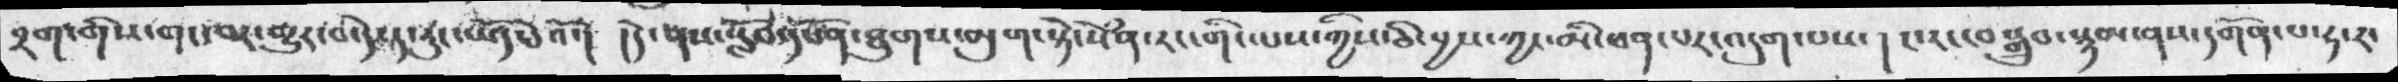བྲག་གིས་གང་བར་མྱུར་བ་དེ་ཏ་ཏུང་ཡོད་དེའོ་།  ། དེ་ནས་སློབ་དཔོན་ཐུགས་མུག་སྟེ་སེཾན་རང་གི་ལས་ཀྱིས་ཅི་བྱས་ཀྱང་མི་ཕན་པར་འདུག་པས་ ། ང་རང་བསྒྲུབ་སྙམ་ནས་དགོན་པ་ཧ་ར་
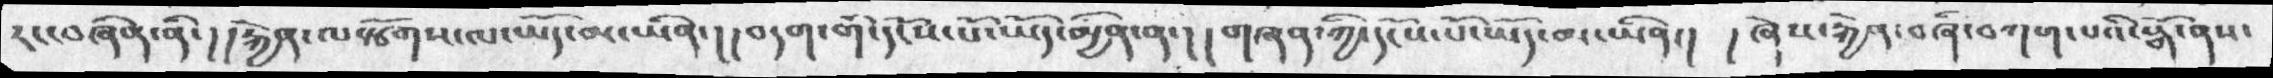རང་བཞིན་ནི་ །། རྐྱེན་ལ་རྩོགས་ལ་ཡོད་མ་ཡིན་།། བདག་གི་དངོས་པོ་ཡོད་མྱིན་ན་།། གཞན་ཀྱི་དངོས་པོ་ཡོད་མ་ཡིན་།  ། ཞེས་རྐྱེན་བཞི་བཀག་པའི་སྒོ་ནས་
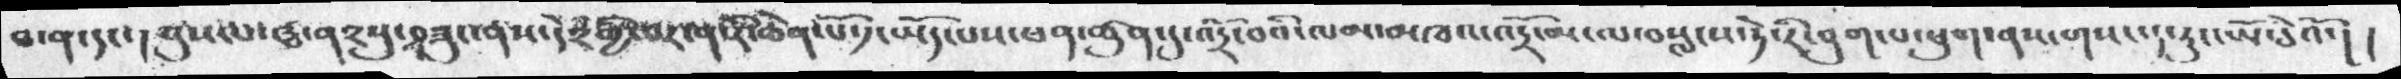ཐ་ན་དང་།  ནུས་ལ་ཝ༢སུ་བཟུང་ནས་དེ༢གྱི་བར་ན་རེ་ཆེན་པོ་༡་ཡོད་པས་ཕན་ཚུན་དུ་འདྲོ་བའི་ལམ་མཁའ་འདྲེ་མ་ལ་བསླངས་ཏེ་རི་བུག་པ་ཕུག་ནས་གསང་དུ་རུང་ཡོ་ཅེའོ་།  །
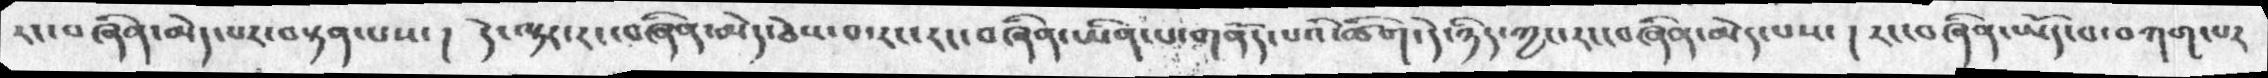རང་བཞིན་མེད་པར་བསྟན་པས་།  དེ་ལྟར་རང་བཞིན་མེད་ཅེས་བ་རང་རང་བཞིན་ཡིན་པ་གནོད་པའི་ཚིག་དེ་ཉིད་ཀྱང་རང་བཞིན་མེད་པས་།  རང་བཞིན་ཡོད་པ་བཀག་པར
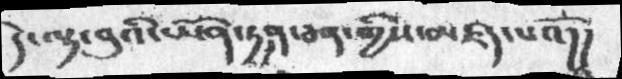དེ་ལྟ་བུའི་ཡོན་ཏན་ཅན་གྱིས་མཛད་པའོ།།
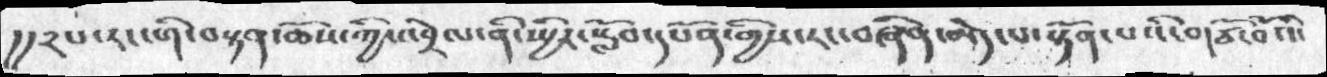།།༢པ་རང་གི་བསྟན་ཆོས་ཀྱི་འབྲེལ་ནི་སྤྱིར་སློབ་དཔོན་གྱིས་རང་བཞིན་མེད་པ་སྟོན་པའི་གཙོ་བོའི་
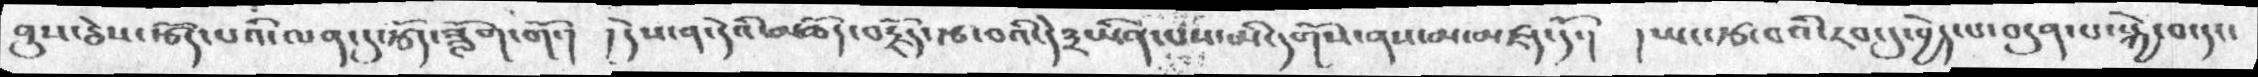ནུས་ཅེས་རྩོད་པའི་ལན་དུ་རྩོད་ཟློག་གོ་། །དེས་ན་དེའི་མཆོད་བརྗོད་རྩ་བའི་དེ་༣་ཡིན་པས་མི་དགོས་ནས་མ་མཛད་དོ། ། ཡང་རྩ་བའི་རབ་ཏུ་བྱེད་པ་བདུན་པ་སྐྱེ་བ་དང་།
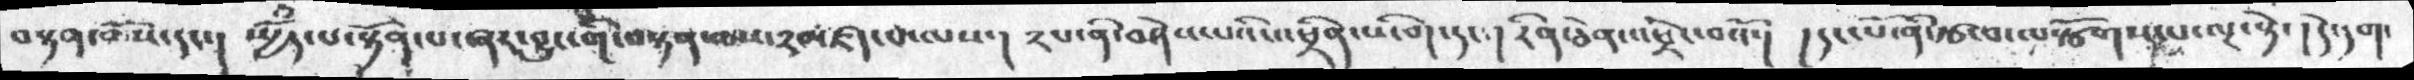བསྟན་ཆོས་དང་། སྤྱོད་པ་སྟོན་པ་ཞར་བྱུང་གི་བསྟན་ཆས་༢མཛད་པ་ལས། ༢ས་ནི་བཤེས་པའི་འཕྲིན་པ་གེ་དང་། རིན་ཆེན་འཕྲེང་བའོ། ། དང་པོ་ནི་རྩ་བ་ལ་སྩོགས་པ་ལྔ་སྟེ། །དེ་དག་
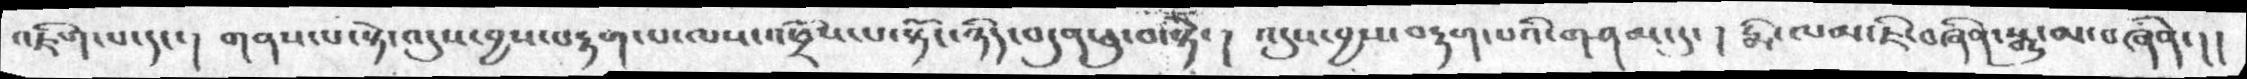འཇིག་པ་དང། གནས་པ་སྟེ་འདུས་བྱས་བརྟག་པ་ལས་འཕྲོས་པ་སྟོང་ཉིད་བདུན་ཅུ་བ་སྟེ་། འདུས་བྱས་བརྟགས་པའི་གཤམ་དུ་། རྨི་ལམ་ཇི་བཞིན་སྒྲུ་མ་བཞིན་།།
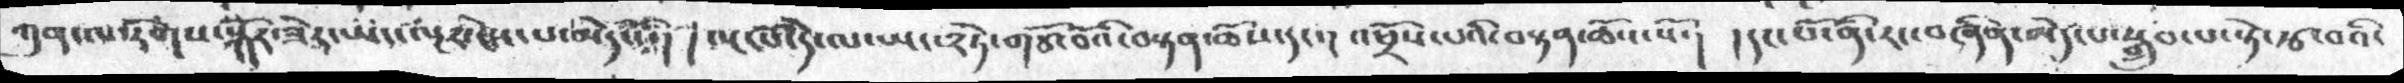ཀུན་ལ་རོགས་སྐོར་ཟེར་ཡང་ལྔར་ངེས་པ་མེད་པའི། ལྔ་བོ་དེ་ལ་ཡང་༢ཏེ་གཙོ་བོའི་བསྟན་ཆོས་དང་། འཕྲོས་པའི་བསྟནཆོས་སོ་། །དང་པོ་ནི་རང་བཞིན་མེད་པ་སྒྲུབ་པ་སྟེ་རྩ་བའི་
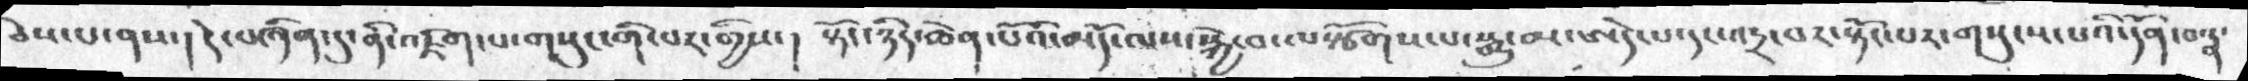ཅེས་པ་ནས། དེ་བཞིན་དུ་ནི་འཇིག་པ་གསུང་གི་བར་གྱིས། སྟོང་ཉིད་ཆེན་པོའི་མདོ་ལས་སྐྱེ་བ་ལ་སྩོགས་པ་སྒྱུ་མ་མེད་པ་དང་འདྲ་བར་སྟོང་བར་གསུངས་པའི་དོན་བ་རྣ་
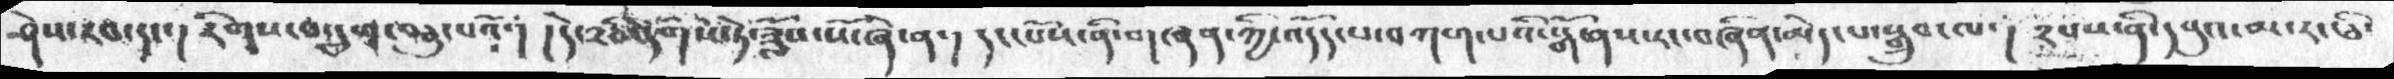ཤེས་རབ་དང་། རིགས་པ་དྲུག་བཅུ་བའོ་། ། དེ་༢་ཅི་དགོས་ཏེ་ཟློས་སོ་ཞེ་ན་ ། དང་པོས་ནི་གཞན་ཀྱི་འདོད་པ་བཀག་པའི་སྒོ་ནས་རང་བཞིན་མེད་པ་སྒྲུབ་ལ་ ། ༢པས་ནི་དབུའ་མ་རང་ཅི་
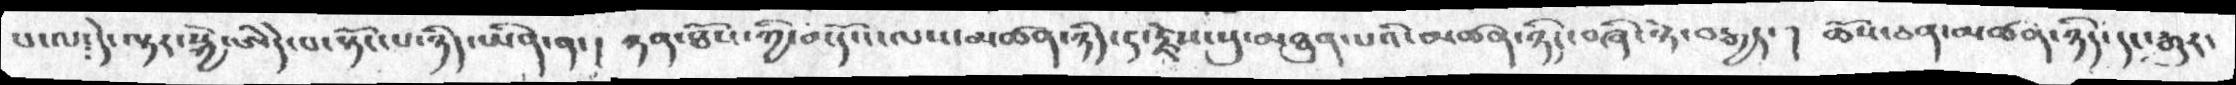པ་ལ་དེ་ལྟར་སྐྱོ་ཨིདེ་པ་སྟོང་པ་ཉིད་ཡིན་ན་ ། ཉན་ཐོས་ཀྱི་མདོ་ལས་མཚན་ཉིད་དུ་རྗེས་སུ་མཐུན་པའི་མཚན་ཉིད་བཞི་སྟེ་བརྒྱད་ ། ཆོས་ཅན་མཚན་ཉིད་དང་རྒུར་
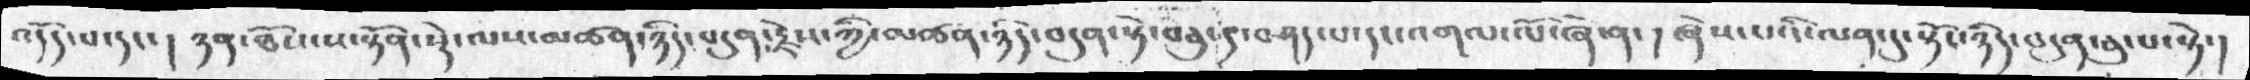འདོད་༷པ་དང་། ཉན་ཐོས་ས་སྟོན་སྡེ་ལས་མཚན་ཉིད་བདུན་རྗེས་ཀྱི་མཚན་ཉིད་བདུན་སྟེ་བདུན་དུ་བཤད་པ་དང་འགལ་ལོ་ཞེ་ན་། ཞེས་པའི་ལན་དུ་སྟོང་ཉིད་བདུན་ཅུ་པ་སྟེ་།
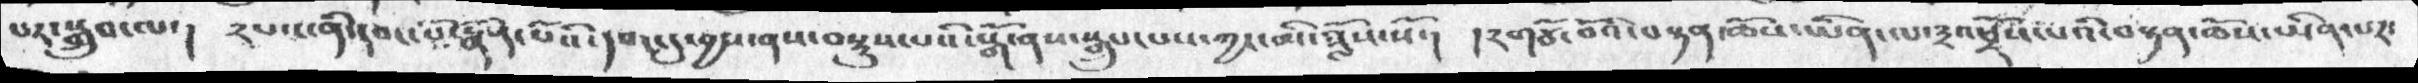པར་སྒྲུབ་ལ། ༢ས་ང་ནི་དབང་པོ་རྣོན་པོའི་དབང་དུ་བྱས་ནས་བསྡུས་པའི་སྒོ་ནས་སྒྲུབ་པས་ཀྱང་མི་ཟློས་སོ་།  །༢གཙོ་བོའི་བསྟན་ཆོས་ཡིན་ལ་༣འཕྲོས་པའི་བསྟན་ཆོས་ཡིན་པར་
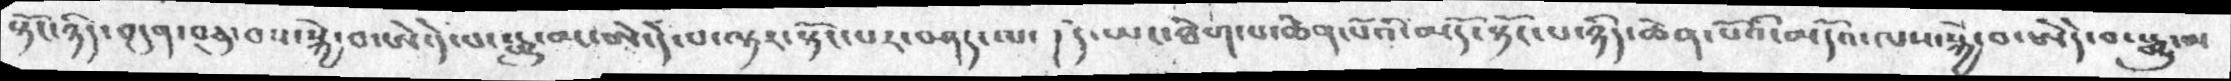སྟོང་ཉིད་བདུན་བཅུ་བས་སྐྱེ་བ་ཨེ་དེ་པ་སྒྱུ་མ་ཨེ་དེ་པ་ལྟར་སྟོང་པར་བཤད་ལ། །དེ་ཡང་ཐེག་པ་ཆེན་པོའི་མདོ་སྟོང་པ་ཉིད་ཆེན་པོའི་མདོའི་ལས་སྐྱེ་བ་ཨེ་དེ་བ་སྒྱུ་མ་
